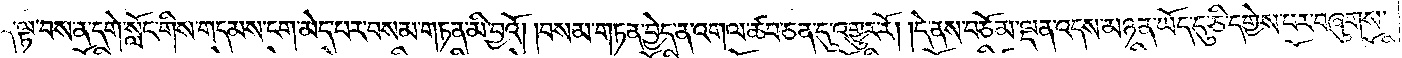དེ་ལྟ་བས་ན་དགེ་སློང་གིས་གདམས་ངག་མེད་པར་བསམ་གཏན་མི་བྱའོ། །བསམ་གཏན་བྱེད་ན་འགལ་ཚབ་ཅན་དུ་འགྱུར་རོ། །དེ་ནས་བཅོམ་ལྡན་འདས་མཉན་ཡོད་དུ་ཅི་དགྱེས་པར་བཞུགས་
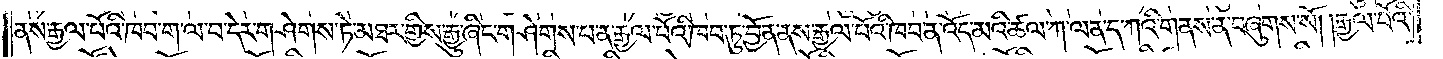ནས་རྒྱལ་པོའི་ཁབ་ག་ལ་བ་དེར་གཤེགས་ཏེ་མཐར་གྱིས་རྒྱུ་ཞིང་གཤེགས་པ་ན་རྒྱལ་པོའི་ཁབ་ཏུ་བྱོན་ནས་རྒྱལ་པོའི་ཁབ་ན་འོད་མའི་ཚལ་ཀ་ལན་ད་ཀའི་གནས་ན་བཞུགས་སོ། །རྒྱལ་པོའི་
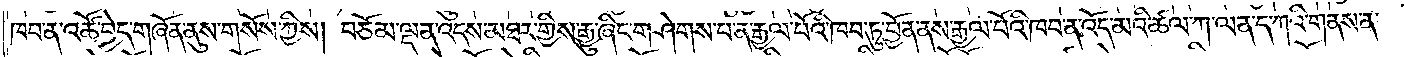ཁབ་ན་འཚོ་བྱེད་གཞོན་ནུས་གསོས་ཀྱིས། བཅོམ་ལྡན་འདས་མཐར་གྱིས་རྒྱུ་ཞིང་གཤེགས་པ་ན་རྒྱལ་པོའི་ཁབ་ཏུ་བྱོན་ནས་རྒྱལ་པོའི་ཁབ་ན་འོད་མའི་ཚལ་ཀ་ལན་ད་ཀའི་གནས་ན་
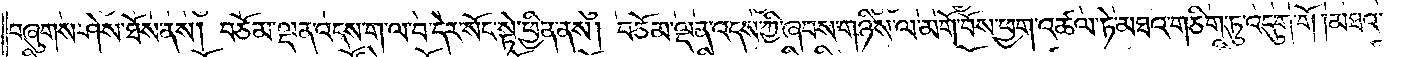བཞུགས་ཤེས་ཐོས་ནས། བཅོམ་ལྡན་འདས་ག་ལ་བ་དེར་སོང་སྟེ་ཕྱིན་ནས། བཅོམ་ལྡན་འདས་ཀྱི་ཞབས་གཉིས་ལ་མགོ་བོས་ཕྱག་འཚལ་ཏེ་མཐའ་གཅིག་ཏུ་འདུག་གོ །མཐའ་
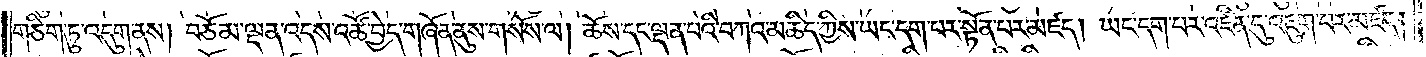གཅིག་ཏུ་འདུག་ནས། བཅོམ་ལྡན་འདས་འཚོ་བྱེད་གཞོན་ནུས་གསོས་ལ། ཆོས་དང་ལྡན་པའི་བཀའ་མཆིད་ཀྱིས་ཡང་དག་པར་སྟོན་པར་མཛད། ཡང་དག་པར་འཛིན་དུ་འཇུག་པར་མཛད།
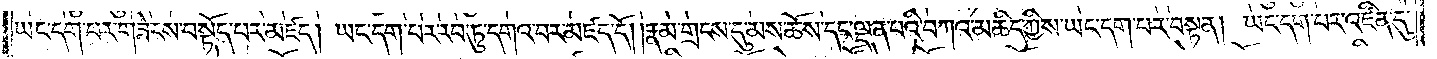ཡང་དག་པར་གཟེངས་བསྟོད་པར་མཛད། ཡང་དག་པར་རབ་ཏུ་དགའ་བར་མཛད་དོ། །རྣམ་གྲངས་དུ་མས་ཆོས་དང་ལྡན་པའི་བཀའ་མཆིད་ཀྱིས་ཡང་དག་པར་བསྟན། ཡང་དག་པར་འཛིན་དུ་
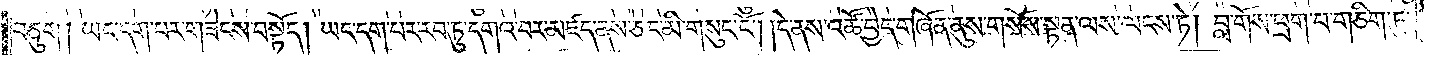བཅུག །ཡང་དག་པར་གཟེངས་བསྟོད། ཡང་དག་པར་རབ་ཏུ་དགའ་བར་མཛད་ནས་ཅང་མི་གསུང་ངོ༌། །དེ་ནས་འཚོ་བྱེད་གཞོན་ནུས་གསོས་སྟན་ལས་ལངས་ཏེ། བླ་གོས་ཕྲག་པ་གཅིག་ཏུ་
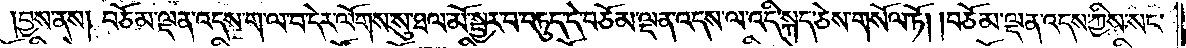བྱས་ནས། བཅོམ་ལྡན་འདས་ག་ལ་བ་དེར་ལོགས་སུ་ཐལ་མོ་སྦྱར་བ་བཏུད་དེ་བཅོམ་ལྡན་འདས་ལ་འདི་སྐད་ཅེས་གསོལ་ཏོ། །བཅོམ་ལྡན་འདས་ཀྱིས་སང་
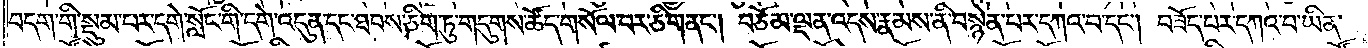བདག་གི་སྡུམ་པར་དགེ་སློང་གི་དགེ་འདུན་དང་ཐབས་ཅིག་ཏུ་གདུགས་ཚོད་གསོལ་བར་ཅི་གནང༌། བཅོམ་ལྡན་འདས་རྣམས་ནི་བསྙེན་པར་དཀའ་བ་དང༌། བཟོད་པར་དཀའ་བ་ཡིན་
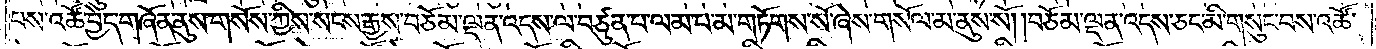པས་འཚོ་བྱེད་གཞོན་ནུས་གསོས་ཀྱིས་སངས་རྒྱས་བཅོམ་ལྡན་འདས་ལ་བཙུན་པ་ལམ་པ་མ་གཏོགས་སོ་ཞེས་གསོལ་མ་ནུས་སོ། །བཅོམ་ལྡན་འདས་ཅང་མི་གསུང་བས་འཚོ་
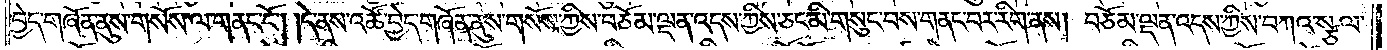བྱེད་གཞོན་ནུས་གསོས་ལ་གནང་ངོ༌། །དེ་ནས་འཚོ་བྱེད་གཞོན་ནུས་གསོས་ཀྱིས་བཅོམ་ལྡན་འདས་ཀྱིས་ཅང་མི་གསུང་བས་གནང་བར་རིག་ནས། བཅོམ་ལྡན་འདས་ཀྱིས་བཀའ་སྩལ་
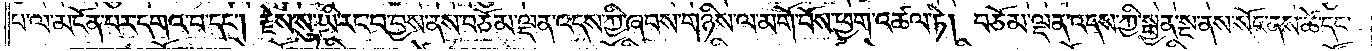པ་ལ་མངོན་པར་དགའ་བ་དང༌། རྗེས་སུ་ཡི་རང་བ་བྱས་ནས་བཅོམ་ལྡན་འདས་ཀྱི་ཞབས་གཉིས་ལ་མགོ་བོས་ཕྱག་འཚལ་ཏེ། བཅོམ་ལྡན་འདས་ཀྱི་སྤྱན་སྔ་ནས་སོང་ནས་ཚེ་དང་
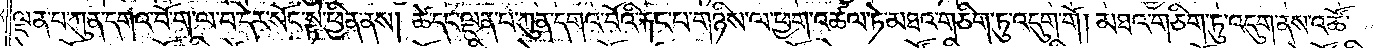ལྡན་པ་ཀུན་དགའ་བོ་ག་ལ་བ་དེར་སོང་སྟེ་ཕྱིན་ནས། ཚེ་དང་ལྡན་པ་ཀུན་དགའ་བོའི་རྐང་པ་གཉིས་ལ་ཕྱག་འཚལ་ཏེ་མཐའ་གཅིག་ཏུ་འདུག་གོ། མཐའ་གཅིག་ཏུ་འདུག་ནས་འཚོ་
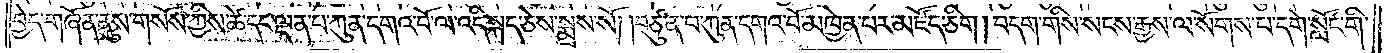བྱེད་གཞོན་ནུས་གསོས་ཀྱིས་ཚེ་དང་ལྡན་པ་ཀུན་དགའ་བོ་ལ་འདི་སྐད་ཅེས་སྨྲས་སོ། །བཙུན་པ་ཀུན་དགའ་བོ་མཁྱེན་པར་མཛོད་ཅིག །བདག་གིས་སངས་རྒྱས་ལ་སོགས་པ་དགེ་སློང་གི་
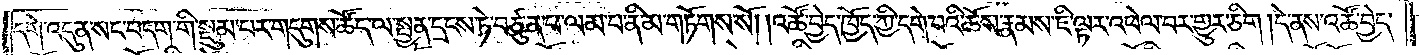དགེ་འདུན་སང་བདག་གི་སྡུམ་པར་གདུགས་ཚོད་ལ་སྤྱན་དྲངས་ཏེ་བཙུན་པ་ལམ་པ་ནི་མ་གཏོགས་སོ། །འཚོ་བྱེད་ཁྱོད་ཀྱི་དགེ་བའི་ཆོས་རྣམས་ཇི་ལྟར་འཕེལ་བར་གྱུར་ཅིག །དེ་ནས་འཚོ་བྱེད་
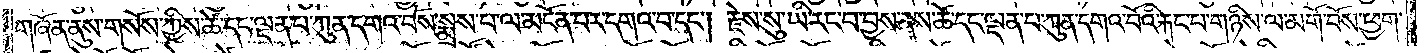གཞོན་ནུས་གསོས་ཀྱིས་ཚེ་དང་ལྡན་པ་ཀུན་དགའ་བོས་སྨྲས་པ་ལ་མངོན་པར་དགའ་བ་དང༌། རྗེས་སུ་ཡི་རང་བ་བྱས་ནས་ཚེ་དང་ལྡན་པ་ཀུན་དགའ་བོའི་རྐང་པ་གཉིས་ལ་མགོ་བོས་ཕྱག་
